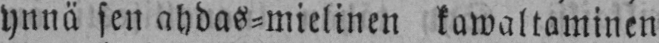ynnä sen ahdas-mielinen kawaltaminen
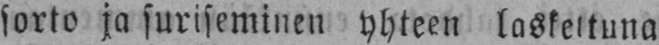sorto ja suriseminen yhteen laskeltuna
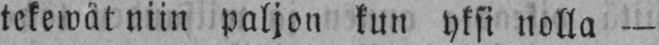tekewat niin paljon kun yksi nolla —
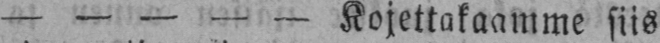— — — — — Kojettakaamme siis
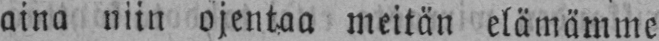aina niin ojentaa meitän elämämme
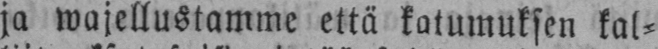ja wajellustamme että katumuksen kal-
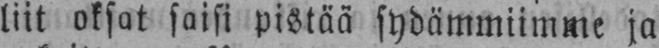liit oksat saisi pistää sydämmiimme ja
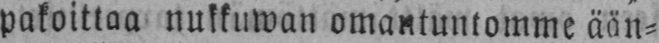pakoittaa nukkuwan omantuntomme ään-
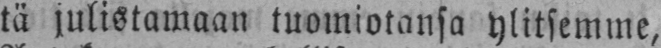tä julistamaan tuomiotansa ylitsemme,
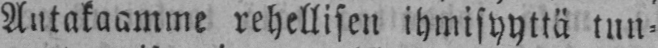Antakaamme rehellisen ihmisyyttä tun-
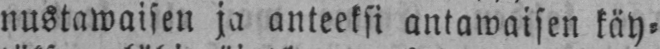nustawaisen ja anteeksi antawaisen käy-
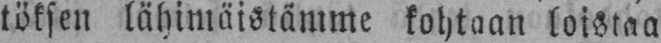töksen lähimäistämme kohtaan loistaa
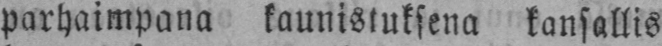parhaimpana kaunistuksena kansallis
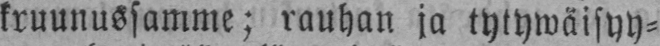kruunussamme; rauhan ja tytywäisyy-
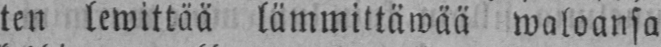ten lewittää lämmittäwää waloansa
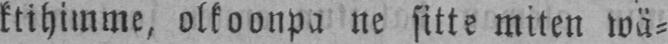ktihimme, olkoonpa ne sitte miten wä-
